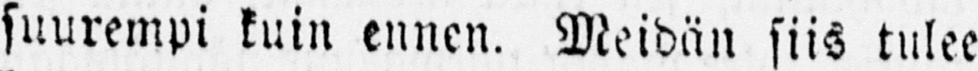suurempi kuin ennen. Meidän siis tulee
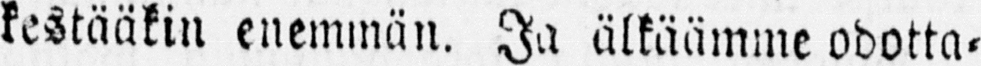kestääkin enemmän. Ja älkäämme odotta-
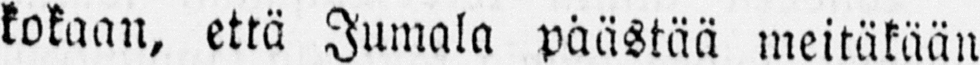kokaan, että Jumala päästää meitäkään
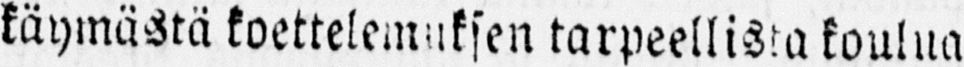käymästä koettelemuksen tarpeellista koulua
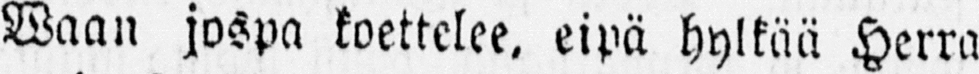Waan jospa koettelee, eipä hylkää Herra
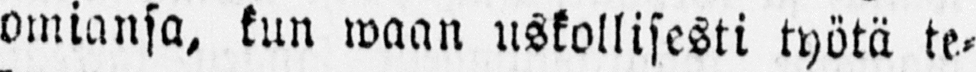omiansa, kun waan uskollisesti työtä te-
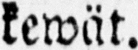kewät.
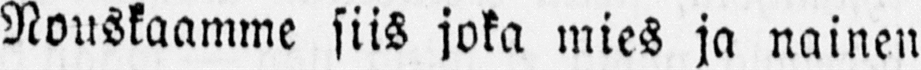Nouskaamme siis joka mies ja nainen
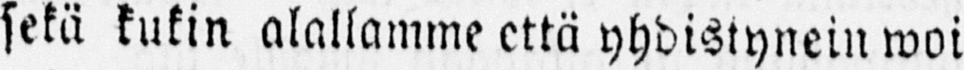sekä kukin alallamme että yhdistynein woi
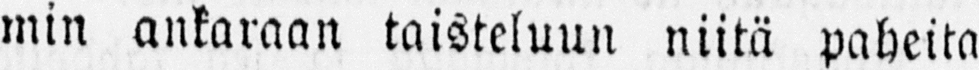min ankaraan taisteluun niitä paheita
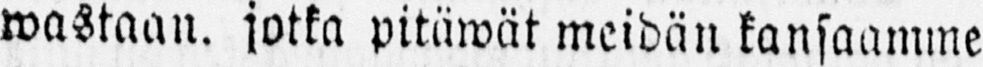wastaan, jotka pitäwät meidän kansaamme
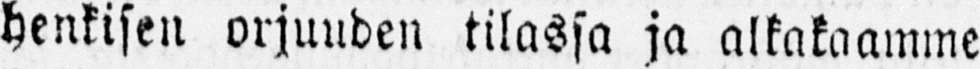henkisen orjuuden tilassa ja alkakaamme
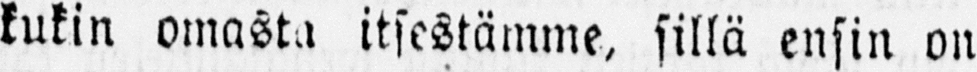kukin omasta itsestämme, sillä ensin on
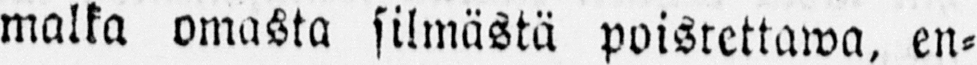malka omasta silmästä poistettawa, en-
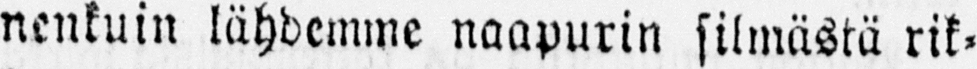nenkuin lähdemme naapurin silmästä rik-
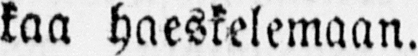kaa haeskelemaan.
